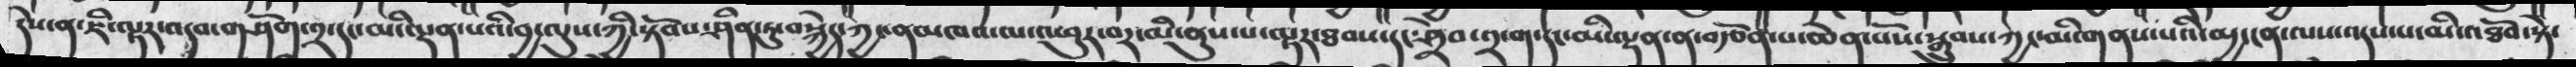དེས་ན་ཇི་ལྟར་འདབ་གཤོག་༢་དང་མི་ལྡན་པའི་བྱ་ལུས་ཀྱི་སྟོབས་ཤིན་ཏུ་བསྐྱེད་ཀྱང་ནམཁའ་ལ་འཕུར་བར་མི་ནུས་པ་ལྟར་ཐབས་དང་ཤྲེབ་༢་ག་དང་མི་ལྡན་ན་བརྩོན་པ་ཆེན་པོས་སྒྲུབ་ཀྱང་མི་གནས་པའི་མྱང་ངན་ལས་འདས་པ་མི་འཐོབ་སྟེ་
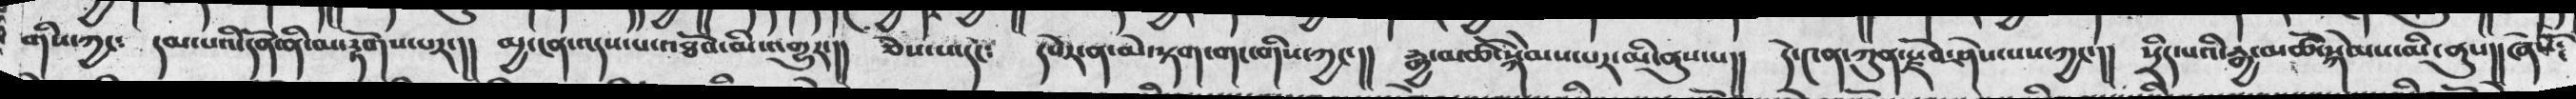གིས་ཀྱང༴   དམ་པའི་དོན་ནི་མ་རྟོགས་པར་།།   མྱ་ངན་འདས་པ་འཐོབ་མི་འགྱུར་།།   ཅེས་པ་དང༴  དཔེར་ན་མི་སྟག་གང་གིས་ཀྱང་།།   རྒྱ་མཚོ་སྐེམས་པར་མི་ནུས་པ།།  དེ་༤ན་ཀུན་སྫོབ་ཤེས་པས་ཀྱང་།།   སྲིད་པའི་རྒྱ་མཚོ་སྐེམས་མི་ནུས།། ཞེསོ༴
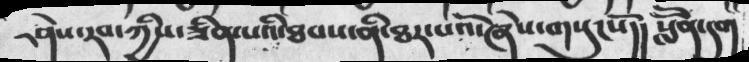ཤེས་རབ་ཀྱི་ཟིན་པའི་ཐབས་ནི་ཐར་པའོ་ཞེས་གསུངསོ།།    སློོན་དག
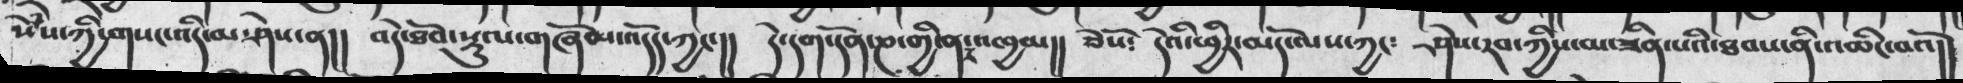སེཾས་ཀྱི་གསང་འདི་མ་ཤེས་ན།།  བདེ་ཐོབ་སྡུལ་གཞོམ་འདོད་ཀྱང་།།  དེ་དག་དོན་ཎ་གྱི་ནར་འཁྱམ།། ཅེསོ༴  དེའི་ཕྱིར་མདོ་ལས་ཀྱང༴  ཤེས་རབ་ཀྱིས་མ་ཟིན་པའི་ཐབས་ནི་འཆིང་བའོ།།
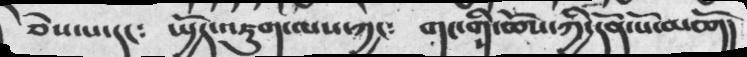ཅེས་པ་དང༴   ཡྱོད་འཇུག་ལས་ཀྱང༴   གང་གི་ཆོས་ཀྱི་དོན་པོ་མཆོག།།
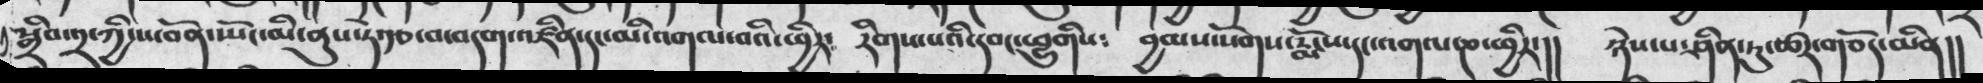སྒྲིབ་༢་ཀྱི་ས་བོན་སྤོང་མི་ནུས་ཏེ་རྩ་བ་བདག་འཛིན་དང་མི་འགལ་བའི་ཕྱིར༴   རིགས་པའི་དབང་ཕྱུགིས༴  བྱམས་སོགས་རྨོངས་དང་འགལ་ཎ་ཕྱིར་།།   ཉེས་པ་ཤིན་ཏུ་ཚར་གཅོད་མིན།།
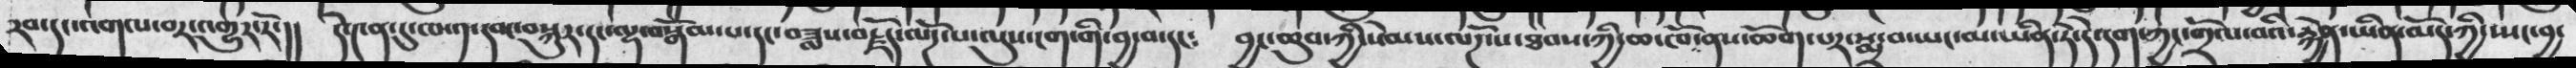རབ་དང་འགལ་བར་འགྱུར་རོ།།  དེ་༤ན་དུ་ཁ་༡་དབང་བསྐུར་དང་ལྷ་བསྒོམ་པ་དང་བཟླས་བརྗོད་ལོཌ་པ་ལུས་ངག་གི་བྱ་བ་དང༴  བྱང་ཆུབ་ཀྱི་སེམས་ལོཌ་པ་ཐབས་ཀྱི་ཆ་ཁོ་ནས་ཆོག་པར་སྨྲ་བ་ཡང་མ་ཡིན་ཏེ་དེ་དག་ཀྱང་གྲོལ་བའི་རྐྱེན་ཡིན་མོད་ཀྱི་སྤང་བྱ་
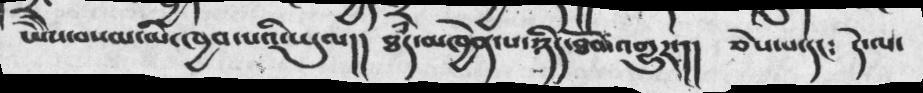ཡེེས་བསམ་མི་ཁྱབ་པའི་ཡུལ།།    ཐཾད་མཁྱེན་པ་ཉིད་ཐོབ་འགྱུར་།།  ཅེས་པ་དང༴   དེ་ལ་
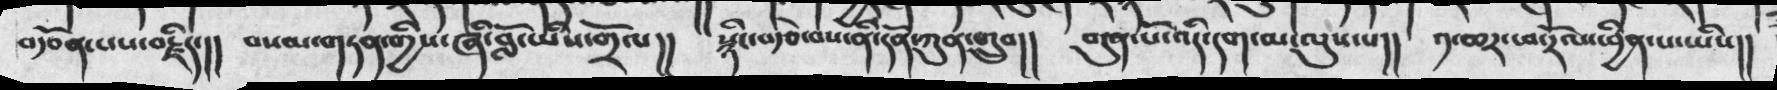བརྩོན་པས་བརྗིད་།།   བསམ་གཏན་གྱིས་ཞི་བློ་ཡིས་གྲོལ།།   སྙིང་བརྩེ་བས་ནི་དོན་ཀུན་གྲུབ།།   བདུན་པོ་འདི་དག་མ་ལུས་པ།།  ༡་ཆར་ཕ་རོལ་ཕྱིན་པ་ཡིས།།
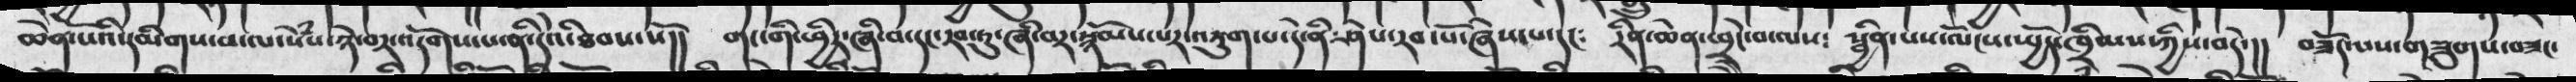ཆེན་པོའི་དམིགས་པ་ལ་སེྃས་ཉེ་བར་འདོགས་པ་ནི་དེའི་ཐབས་སོ།།  གང་གི་ཕྱིར་ཞི་བ་དང་རབ་ཏུ་ཞི་བར་སྙོམས་པར་འཇུག་པ་དེ་ནི་ཤེས་རབ་ཞེས་པ་དང༴   རིན་ཆེན་ཕྲེང་བ་ལས༴    སྦྱིན་པས་ལོངས་ཡྱོད་ཁྲིམས་ཀྱིས་བདེ་།།   བཟོད་པས་གཟུགས་བཟང་
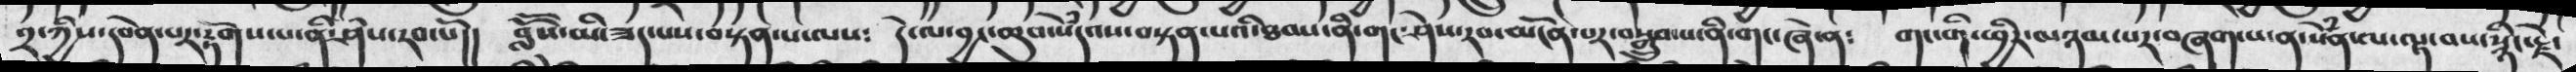༢་ཀྱིས་དབེན་པར་རྟོགས་པ་ནི་ཤེས་སོ།།   བློོས་མི་ཟད་པས་བསྟན་པ་ལས༴  དེ་ལ་བྱང་ཆུབ་སེཾདའས་་བསྟན་པའི་ཐབས་ནི་གང་ཤེས་རབ་མངོན་པར་བསྒྲུབ་པ་ནི་གང་ཞེ་ན༴   གང་གི་ཕྱིར་མཉམ་པར་བཞག་པ་ན་སེཾན་ལ་ལྟ་བས་སྙིང་རྗེ་
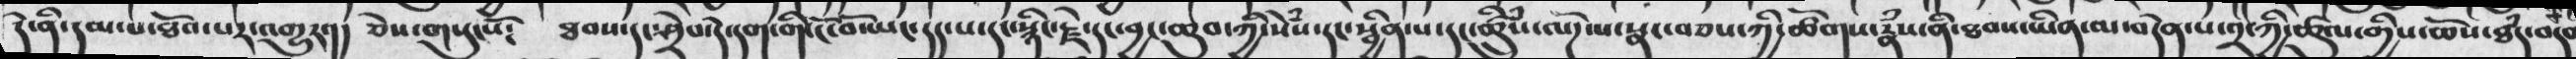དེ་ནི་དམ་པ་ཐོབ་པར་འགྱུར་།།  ཅེས་གསུངསོ༴   ཐབས་དང་ཤྲེབ་དེ་དག་གི་ངོ་བོ་ཡང་དད་པ་དང་སྙིང་རྗེ་དང་བྱང་ཆུབ་ཀྱི་སེྃས་དང་སྦྱིན་པ་དང་ཚྲིུཾས་ལོཌ་པ་སྣང་བཅས་ཀྱི་ཚོགས་རྣཾས་ནི་ཐབས་ཡིན་ལ་བདེན་པ་༢་ཚུལ་གྱིས་ཆོས་ཐཾད་བདག
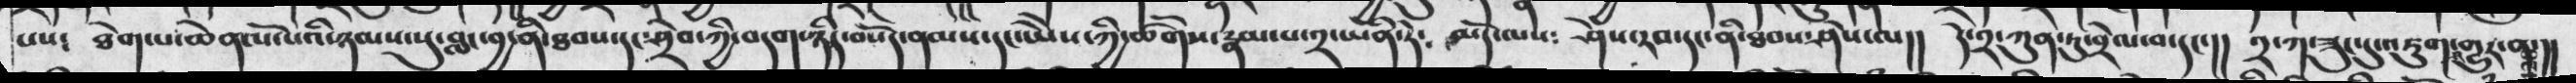པས༴  ཐེག་པ་ཆེན་པོ་པའི་ཉམས་སུ་བླངབྱ་ནི་ཐབས་དང་ཤྲེབ་ཀྱི་བདག་ཉིད་བསོད་ནམས་དང་ཡེེས་ཀྱི་ཚོགས་རྣམས་པ་༢་ཡིན་དེ༴   མདོ་ལས༴   ཤེས་རབ་དང་ནི་ཐབས་ཤེས་ལ།།   དེ་༢་ཀུན་ཏུ་བྲེལ་བ་དང་།།  ༢་ཀ་ཟུང་དུ་འཇུག་གྱུར་མ།།
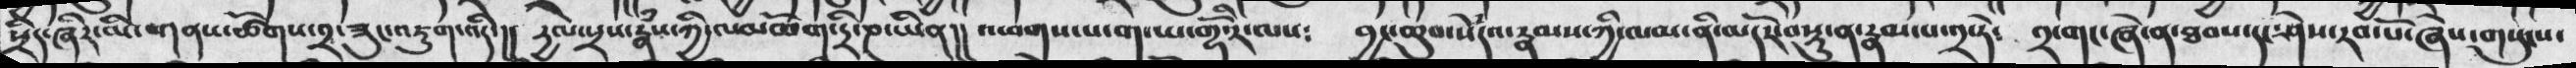སྲིད་ཞིར་མི་གནས་ཚོགས་བྲ་ཟུང་འཇུག་འདི་།།   དྱལ་སྲས་རྣཾས་ཀྱི་ལམཆོག་དྲི་ཎ་ཡིན།།  འཕགས་པ་ག་ཡ་གྷོ་རི་ལས༴  བྱང་ཆུབ་སེཾདའ་རྣམས་ཀྱི་ལམ་ནི་མདོར་བསྡུ་ན་རྣམ་པ་༢་དེ༴  ༢་གང་ཞེ་ན་ཐབས་དང་ཤེས་རབ་པོ་ཞེས་གསུངས་
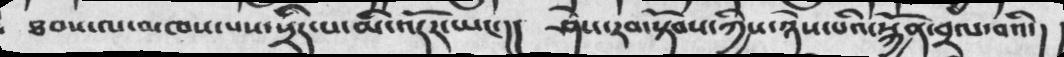ཐབས་ལ་མཁས་པས་སྲིད་པ་མི་འདོར་ཡང་།།  ཤེས་རབ་སྟོབས་ཀྱིས་ཉེས་པའི་སྐྱོན་བྲལ་བའི་།།
